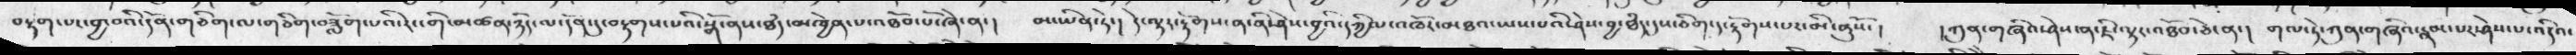བརྟག་པར་བྱ་པའི་དོན་གཅིག་ལ་གཅིག་བཟློག་པའི་རང་གི་མཚན་ཉིད་ལ་དོན་དུ་བརྟགས་པའི་སྒོ་ནས་ཐཾད་མཁྱེན་པ་འཐོབ་པོ་ཞེ་ན་།   མ་ཡིན་ཏེ་།  དེ་ལྟར་རྟོགས་ན་ནི་ཤེས་བྱའི་དཀྱིལ་འཁོར་མཐའ་ཡས་པའི་ཤེས་བྱ་ཐཾད་དུས་ཅིག་དུ་རྟོགས་པར་མི་ནུསོ་ །  ། ཀུན་གཞིའ་ཤེས་ན་ཇི་ལྟར་འཐོབ་ཅེ་ན་།    གལ་ཏེ་ཀུན་གཞིའ་རྣམ་པར་ཤེས་པ་འདིའ་
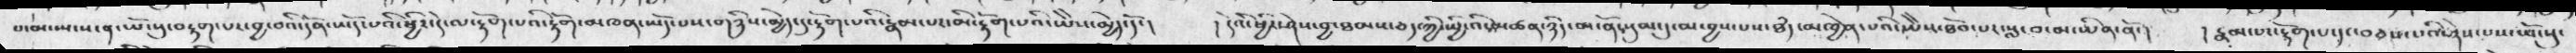པ་མ་སྤངས་ན་ཡོངསུ་བརྟག་པར་བྱ་བའི་དོན་ཡོད་པའི་ཕྱིར་དེ་མ་རྟོག་པའི་རྟོག་མཁན་ཡོད་པས་གཉིས་མྱེད་དུ་རྟོག་པའི་རྣམ་པར་མི་རྟོག་པའི་ཡེེས་མྱེད་དོ་།   ། དེའི་ཕྱིར་ཤེས་བྱ་ཐམས་ཅད་ཀྱི་ཡྱི་འི་མཚན་ཉིད་མངོན་སུམ་དུ་མ་བྱས་པས་ཐཾད་མཁྱེན་པའི་ཡེེས་ཐོབ་པར་སླ་བ་མ་ཡིན་ནོ་།   ། རྣམ་པར་རྟོག་པ་དང་བཅས་པའི་ཉེས་པས་ཡོངསུ་
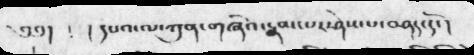༄༅།    ༴  །  དཔའ་ལ་ཀུན་གཞིའ་རྣམ་པར་ཤེས་པ་བཤད་དོ་ །
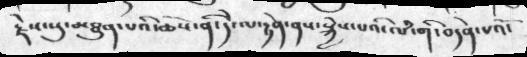རྗེས་སུ་མཐུན་པའི་ཆོས་ནི་དེ་ལ་རྟེན་ནས་སྐྱེས་པའི་ལཾ་གི་བདེན་པའོ་
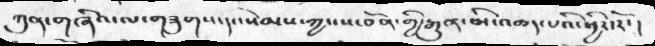ཀུན་གཞིའ་ལ་གཟུགས་དང་སེམས་ཀྱང་ས་བོན་གྱི་རྒྱུན་མི་འཆད་པའི་ཕྱིར་རོ་ །
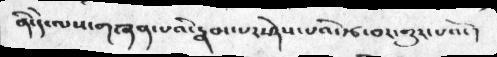ནི་དེ་ལས་གཞན་པའི་རྣམ་པར་ཤེས་པའི་རྩ་བར་གྱུར་པའོ་།
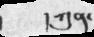།ཀུན་
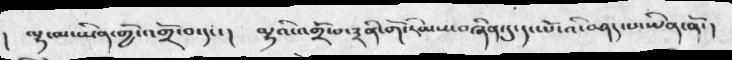། ལྷ་མ་ཡིན་གྱི་འགྲོ་བ་དང་།   ལྷའི་འགྲོ་བ་༣ནི་གོ་རིམས་བཞིན་དུ་དང་པོ་འི་བཤད་པ་ཡིན་ནོ་།
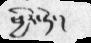ཕྱིར་ཏེ་།
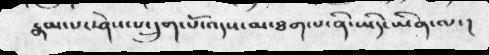རྣམ་པར་ཤེས་པ་དྲུག་པོ་འདས་མ་ཐག་པ་ནི་ཡིད་ཡིན་ལ་།
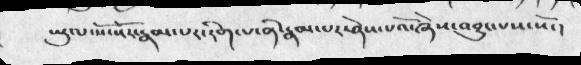ཡུལ་སོ་སོར་རྣམ་པར་རིག་པ་ནི་རྣམ་པར་ཤེས་པའོ་ཞེས་འབྱུང་པས་སོ་།
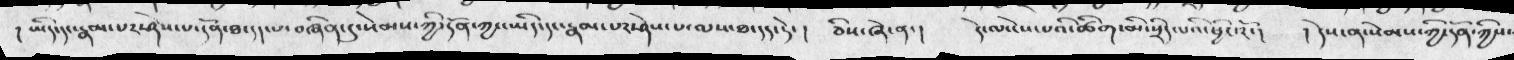། ཡིད་དང་རྣམ་པར་ཤེས་པ་དོན་ཐ་དད་པ་བཞིན་དུ་སེམས་ཀྱི་དོན་ཀྱང་ཡིད་དང་རྣམ་པར་ཤེས་པ་ལས་ཐ་དད་དེ་།  ཅིས་ཞེ་ན་།    དེ་ལ་ངེས་པའི་ཚིག་མི་སྲིད་པའི་ཕྱིར་རོ་།   ། དེས་ན་སེམས་ཀྱི་དོན་ཀྱིས་
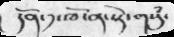དོན་༡་ཁོ་ན་སྟེ་གསུཾ་
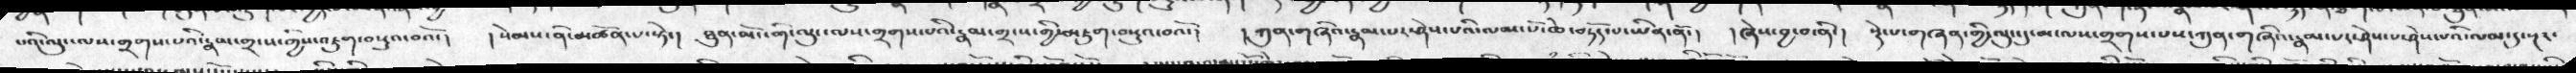པའི་ལུང་ལས་གྲགས་པའི་རྣམ་གྲངས་གྱིས་འཇུག་བསྡུའ་བའོ་།  །སེམས་ནི་མཚོན་པ་སྟེ་།   ཐུན་མོང་གི་ལུང་ལས་གྲགས་པའི་རྣམ་གྲངས་གྱི་མཇུག་བསྡུའོ་བའོ་།  ། ཀུན་གཞིའ་རྣམ་པར་ཤེས་པའི་ལམ་པོ་ཆེ་བཏོད་པ་ཡིན་ནོ་།  ། ཞེས་བྱ་བ་ནི་།  སྡེ་པ་གཞན་གྱི་ལུང་དུ་མ་ལས་གྲགས་པས་ཀུན་གཞིའ་རྣམ་པར་ཤེས་པ་ཤེས་པའི་ལམ་དུ་སྔར་
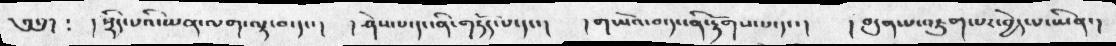༄༅།  ༴ ། སྲིད་པའི་ཡན་ལག་ལྟ་བ་དང་།   ། ཤེས་པ་དང་ནི་གཏོད་པ་དང་།  ། གཡོའ་བ་དང་ནི་རྟོགས་པ་དང་།   ། བདུན་པ་འཇུག་པར་བྱེད་པ་ཡིན་།
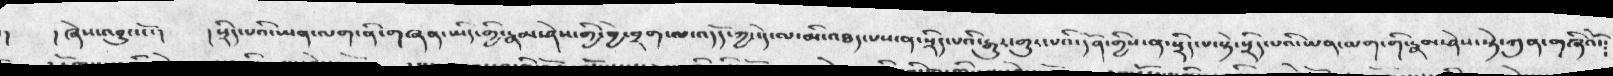།   །ཞེས་འབྱུང་ངོ་།   ། སྲིད་པའི་ཡན་ལག་ནི་གཞན་ཡིད་གྱི་རྣམ་ཤེས་གྱི་བྱེ་བྲག་ལ་འདོད་ཀྱང་དེ་ལ་མི་འཐད་པས་ན་སྲིད་པའི་རྒྱུར་གྱུར་པའི་དོན་གྱིས་ན་སྲིད་པ་སྟེ་སྲིད་པའི་ཡན་ལག་གི་རྣམ་ཤེས་སྟེ་ཀུན་གཞིའོ་༴
